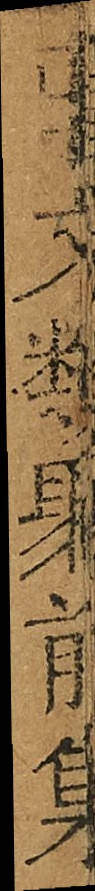事文類聚前集
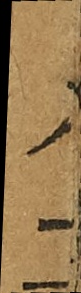八二
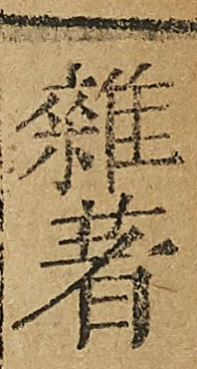雜著
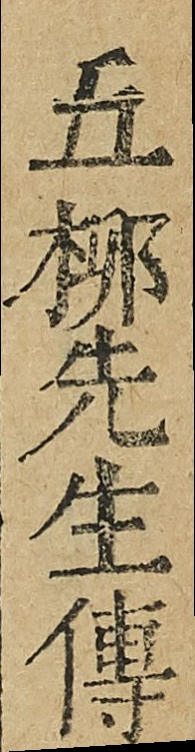五栁先生傳
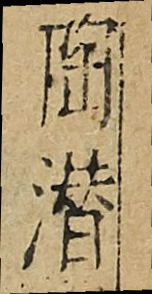陶潛
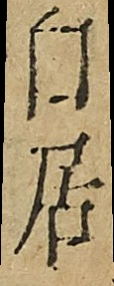白居
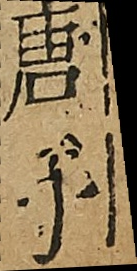唐子
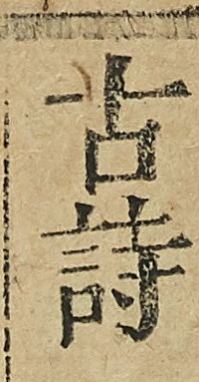古詩
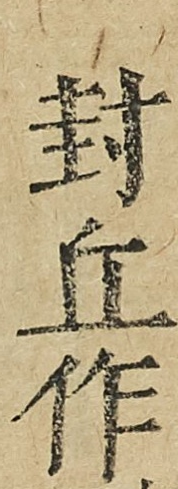封丘作
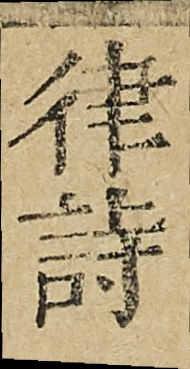律詩
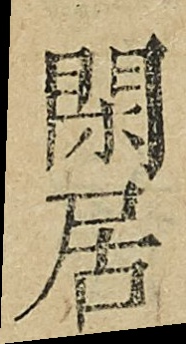閒居
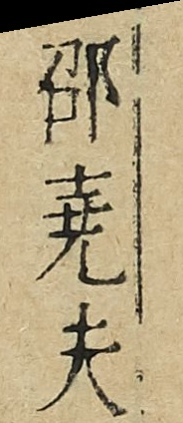邵堯夫
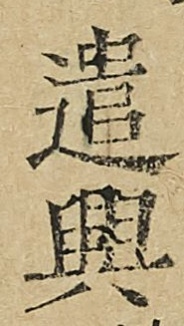遣興
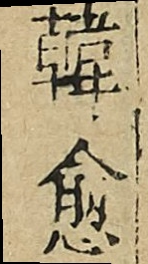韓愈
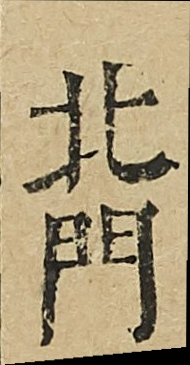北門
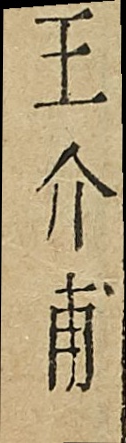王介甫
